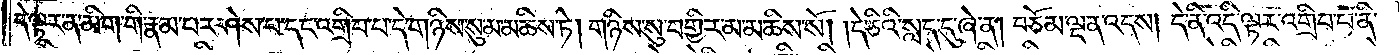དེ་ལྟར་ན་མིག་གི་རྣམ་པར་ཤེས་པ་དང་འགྲིབ་པ་དེ་གཉིས་སུ་མ་མཆིས་ཏེ། གཉིས་སུ་བགྱིར་མ་མཆིས་སོ། །དེ་ཅིའི་སླད་དུ་ཞེ་ན། བཅོམ་ལྡན་འདས། དེ་ནི་འདི་ལྟར་འགྲིབ་པ་ནི་
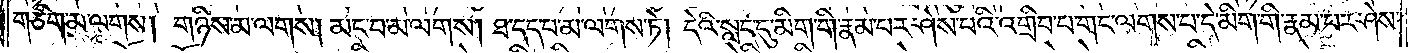གཅིག་མ་ལགས། གཉིས་མ་ལགས། མང་བ་མ་ལགས། ཐ་དད་པ་མ་ལགས་ཏེ། དེའི་སླད་དུ་མིག་གི་རྣམ་པར་ཤེས་པའི་འགྲིབ་པ་གང་ལགས་པ་དེ་མིག་གི་རྣམ་པར་ཤེས་
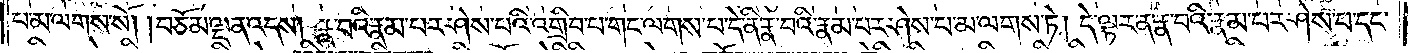པ་མ་ལགས་སོ། །བཅོམ་ལྡན་འདས། རྣ་བའི་རྣམ་པར་ཤེས་པའི་འགྲིབ་པ་གང་ལགས་པ་དེ་ནི་རྣ་བའི་རྣམ་པར་ཤེས་པ་མ་ལགས་ཏེ། དེ་ལྟར་ན་རྣ་བའི་རྣམ་པར་ཤེས་པ་དང་
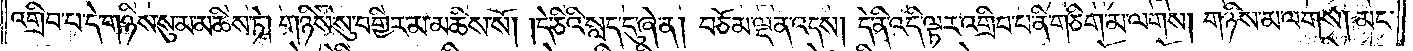འགྲིབ་པ་དེ་གཉིས་སུ་མ་མཆིས་ཏེ། གཉིས་སུ་བགྱིར་མ་མཆིས་སོ། །དེ་ཅིའི་སླད་དུ་ཞེ་ན། བཅོམ་ལྡན་འདས། དེ་ནི་འདི་ལྟར་འགྲིབ་པ་ནི་གཅིག་མ་ལགས། གཉིས་མ་ལགས། མང་
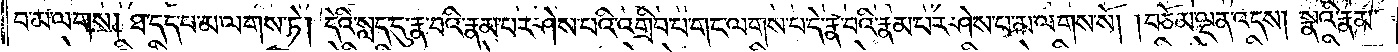བ་མ་ལགས། ཐ་དད་པ་མ་ལགས་ཏེ། དེའི་སླད་དུ་རྣ་བའི་རྣམ་པར་ཤེས་པའི་འགྲིབ་པ་གང་ལགས་པ་དེ་རྣ་བའི་རྣམ་པར་ཤེས་པ་མ་ལགས་སོ། །བཅོམ་ལྡན་འདས། སྣའི་རྣམ་
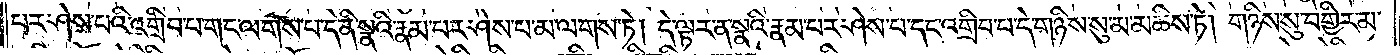པར་ཤེས་པའི་འགྲིབ་པ་གང་ལགས་པ་དེ་ནི་སྣའི་རྣམ་པར་ཤེས་པ་མ་ལགས་ཏེ། དེ་ལྟར་ན་སྣའི་རྣམ་པར་ཤེས་པ་དང་འགྲིབ་པ་དེ་གཉིས་སུ་མ་མཆིས་ཏེ། གཉིས་སུ་བགྱིར་མ་
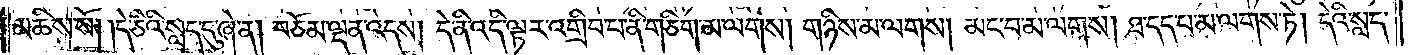མཆིས་སོ། །དེ་ཅིའི་སླད་དུ་ཞེ་ན། བཅོམ་ལྡན་འདས། དེ་ནི་འདི་ལྟར་འགྲིབ་པ་ནི་གཅིག་མ་ལགས། གཉིས་མ་ལགས། མང་བ་མ་ལགས། ཐ་དད་པ་མ་ལགས་ཏེ། དེའི་སླད་
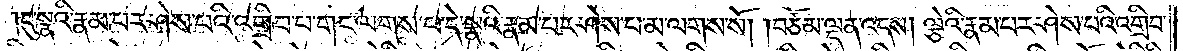དུ་སྣའི་རྣམ་པར་ཤེས་པའི་འགྲིབ་པ་གང་ལགས་པ་དེ་སྣའི་རྣམ་པར་ཤེས་པ་མ་ལགས་སོ། །བཅོམ་ལྡན་འདས། ལྕེའི་རྣམ་པར་ཤེས་པའི་འགྲིབ་
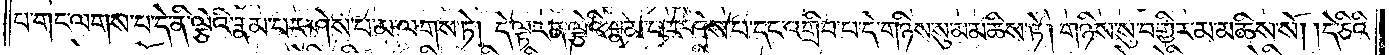པ་གང་ལགས་པ་དེ་ནི་ལྕེའི་རྣམ་པར་ཤེས་པ་མ་ལགས་ཏེ། དེ་ལྟར་ན་ལྕེའི་རྣམ་པར་ཤེས་པ་དང་འགྲིབ་པ་དེ་གཉིས་སུ་མ་མཆིས་ཏེ། གཉིས་སུ་བགྱིར་མ་མཆིས་སོ། །དེ་ཅིའི་
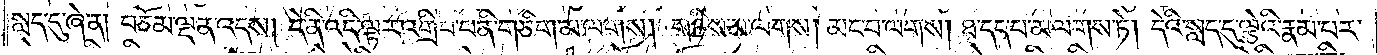སླད་དུ་ཞེ་ན། བཅོམ་ལྡན་འདས། དེ་ནི་འདི་ལྟར་འགྲིབ་པ་ནི་གཅིག་མ་ལགས། གཉིས་མ་ལགས། མང་བ་མ་ལགས། ཐ་དད་པ་མ་ལགས་ཏེ། དེའི་སླད་དུ་ལྕེའི་རྣམ་པར་
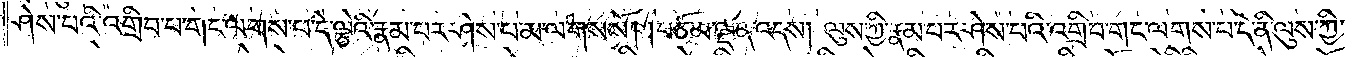ཤེས་པའི་འགྲིབ་པ་གང་ལགས་པ་དེ་ལྕེའི་རྣམ་པར་ཤེས་པ་མ་ལགས་སོ། །བཅོམ་ལྡན་འདས། ལུས་ཀྱི་རྣམ་པར་ཤེས་པའི་འགྲིབ་པ་གང་ལགས་པ་དེ་ནི་ལུས་ཀྱི་
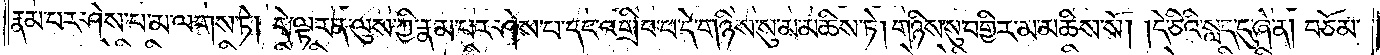རྣམ་པར་ཤེས་པ་མ་ལགས་ཏེ། དེ་ལྟར་ན་ལུས་ཀྱི་རྣམ་པར་ཤེས་པ་དང་འགྲིབ་པ་དེ་གཉིས་སུ་མ་མཆིས་ཏེ། གཉིས་སུ་བགྱིར་མ་མཆིས་སོ། །དེ་ཅིའི་སླད་དུ་ཞེ་ན། བཅོམ་
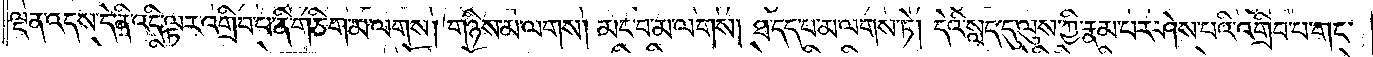ལྡན་འདས་དེ་ནི་འདི་ལྟར་འགྲིབ་པ་ནི་གཅིག་མ་ལགས། གཉིས་མ་ལགས། མང་བ་མ་ལགས། ཐ་དད་པ་མ་ལགས་ཏེ། དེའི་སླད་དུ་ལུས་ཀྱི་རྣམ་པར་ཤེས་པའི་འགྲིབ་པ་གང་
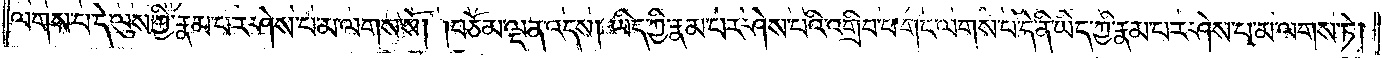ལགས་པ་དེ་ལུས་ཀྱི་རྣམ་པར་ཤེས་པ་མ་ལགས་སོ། །བཅོམ་ལྡན་འདས། ཡིད་ཀྱི་རྣམ་པར་ཤེས་པའི་འགྲིབ་པ་གང་ལགས་པ་དེ་ནི་ཡིད་ཀྱི་རྣམ་པར་ཤེས་པ་མ་ལགས་ཏེ།
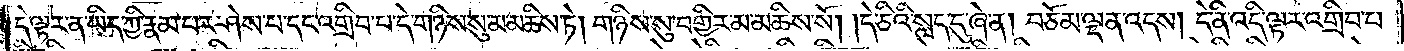དེ་ལྟར་ན་ཡིད་ཀྱི་རྣམ་པར་ཤེས་པ་དང་འགྲིབ་པ་དེ་གཉིས་སུ་མ་མཆིས་ཏེ། གཉིས་སུ་བགྱིར་མ་མཆིས་སོ། །དེ་ཅིའི་སླད་དུ་ཞེ་ན། བཅོམ་ལྡན་འདས། དེ་ནི་འདི་ལྟར་འགྲིབ་པ་
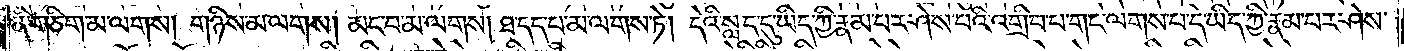ནི་གཅིག་མ་ལགས། གཉིས་མ་ལགས། མང་བ་མ་ལགས། ཐ་དད་པ་མ་ལགས་ཏེ། དེའི་སླད་དུ་ཡིད་ཀྱི་རྣམ་པར་ཤེས་པའི་འགྲིབ་པ་གང་ལགས་པ་དེ་ཡིད་ཀྱི་རྣམ་པར་ཤེས་
